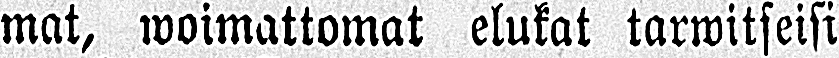mat, woimattomat elukat tarwitseisi
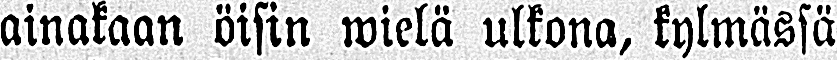ainakaan öisin wielä ulkona, kylmässä
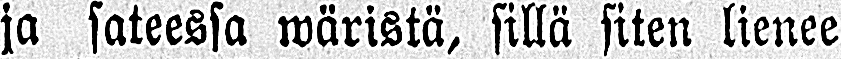ja sateessa wäristä, sillä siten lienee
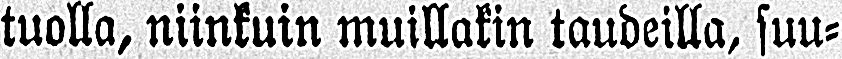tuolla, niinkuin muillakin taudeilla, suu-
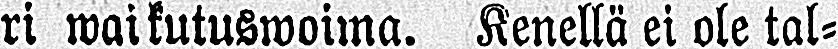ri waikutuswoima. Kenellä ei ole tal-
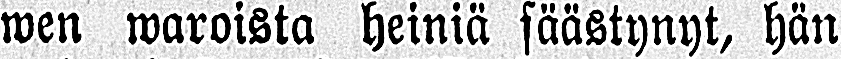men waroista heiniä säästynyt, hän
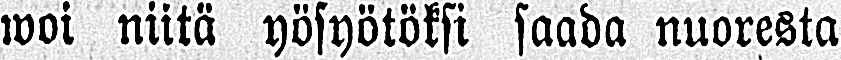woi niitä yösyötöksi saada nuoresta
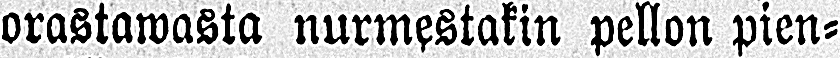orastawasta nurmestakin pellon pien-
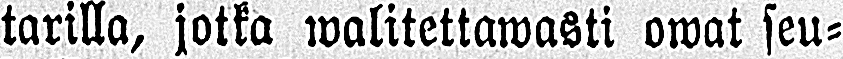tarilla, jotka walitettawasti owat seu-
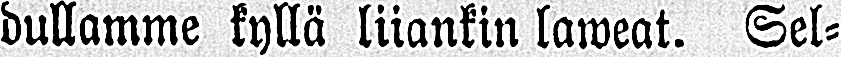dullamme kyllä liiankin laweat. Sel-
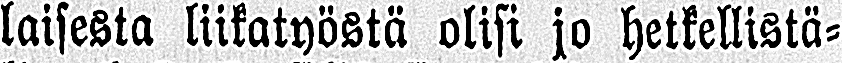laisesta liikatyöstä olisi jo hetkellistä-
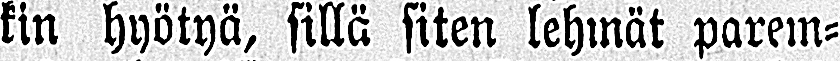kin hyötyä, sillä siten lehmät parem-
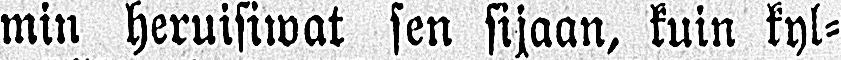min heruisiwat sen sijaan, kuin kyl-
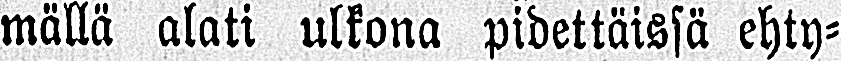mällä alati ulkona pidettäissä ehty-
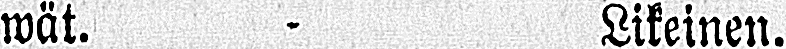wät. Likeinen.
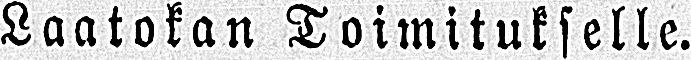Laatokan Toimitukselle.
